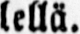lellä.
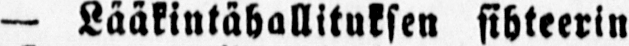— Lääkintähallituksen sihteerin
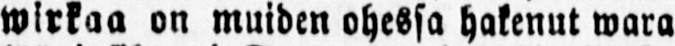wirkaa on muiden ohessa hakenut wara
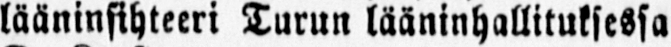lääninsihteeri Turun lääninhallituksessa
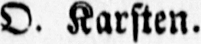O. Karsten.
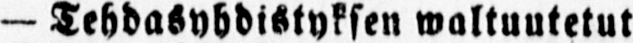— Tehdasyhdistyksen waltuutetut
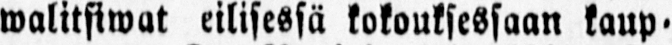walitsiwat eilisessä kokouksessaan kaup-
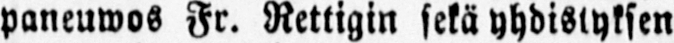paneuwos Fr. Rettigin sekä yhdistyksen
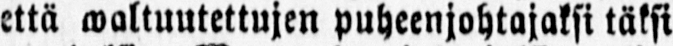että waltuutettujen puheenjohtajaksi täksi
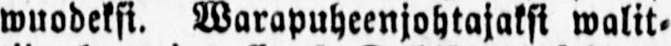wuodeksi. Warapuheenjohtajaksi walit-
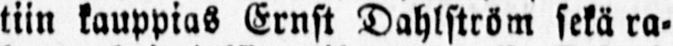tiin kauppias Ernst Dahlström sekä ra-
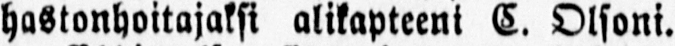hastonhoitajaksi alikapteeni E. Olsoni.
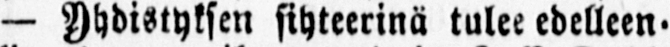— Yhdistyksen sihteerinä tulee edelleen-
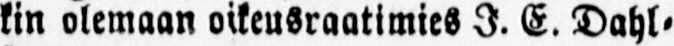kin olemaan oikeusraatimies I. E. Dahl-
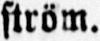ström.
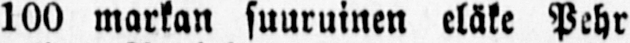100 markan suuruinen eläke Pehr
